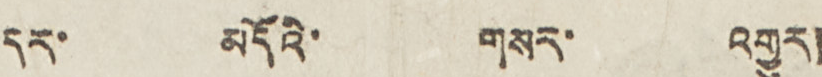དར་ མདོའི་ གསར་ འགྱུར།
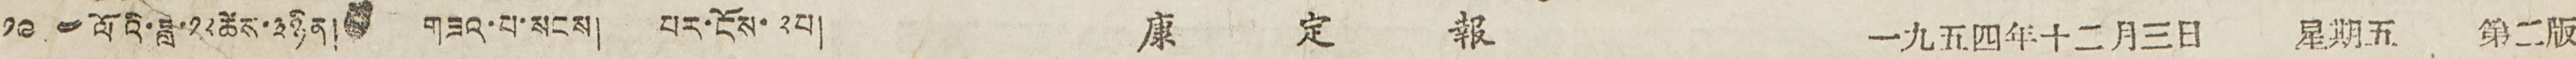༡༩༥༤ལོའི་ཟླ་༡༢ཚེས་༣ཉིན། གཟའ་པ་སངས། པར་ངོས་ ༢པ། 康 定 報 一九五四年十二月三日 星期五 第二版
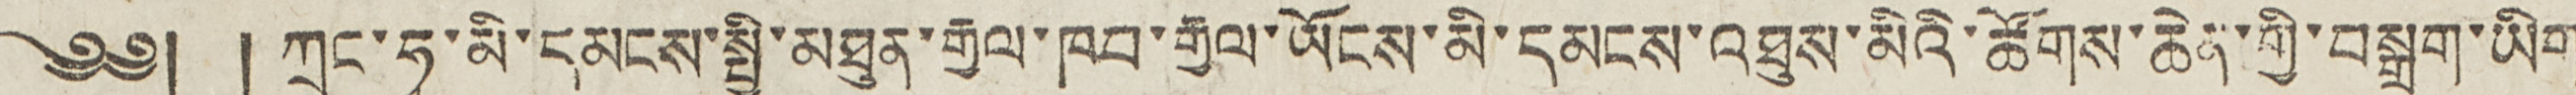༄༅། །ཀྲུང་ཧྭ་མི་དམངས་སྤྱི་མཐུན་རྒྱལ་ཁབ་རྒྱལ་ཡོངས་མི་དམངས་འཐུས་མིའི་ཚོགས་ཆེན་གྱི་བསྒྲག་ཡིག
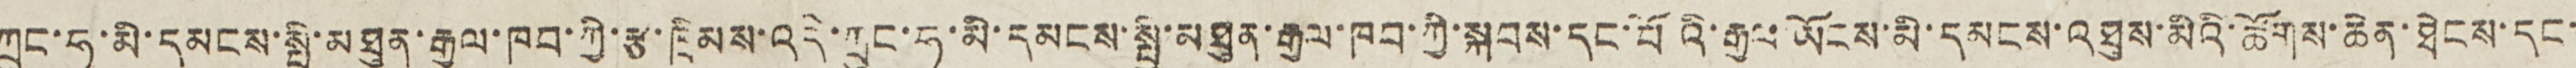ཀྲུང་ཧྭ་མི་དམངས་སྤྱི་མཐུན་རྒྱལ་ཁབ་ཀྱི་རྩ་ཁྲིམས་འདི་ཀྲུང་ཧྭ་མི་དམངས་སྤྱི་མཐུན་རྒྱལ་ཁབ་ཀྱི་སྐབས་དང་པོའི་རྒྱལ ཡོངས་མི་དམངས་འཐུས་མིའི་ཚོགས་ཆེན་ཐེངས་དང་
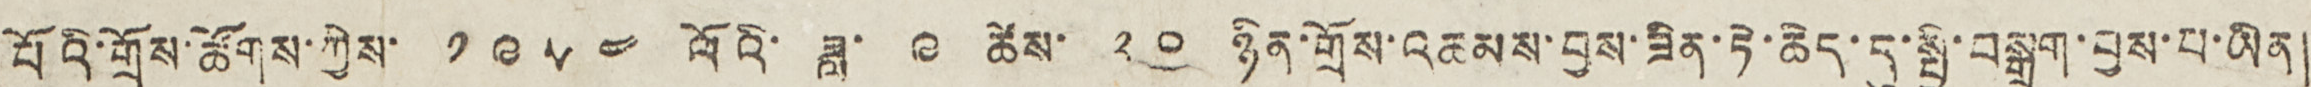པོའི་གྲོས་ཚོགས་ཀྱིས་ ༡༩༥༤ ལོའི་ ཟླ་ ༩ ཚེས་ ༢༠ ཉིན་གྲོས་འཆམས་བྱས་ཟིན་ཏེ་ཆེད་དུ་སྤྱི་བསྒྲག་བྱས་པ་ཡིན།
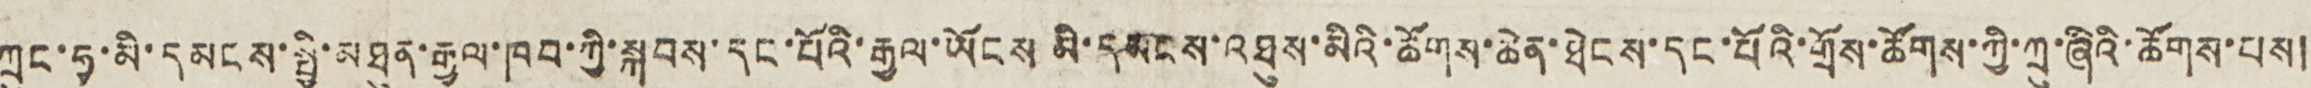ཀྲུང་ཧྭ་མི་དམངས་སྤྱི་མཐུན་རྒྱལ་ཁབ་ཀྱི་སྐབས་དང་པོའི་རྒྱལ་ཡོངས མི་དམངས་འཐུས་མིའི་ཚོགས་ཆེན་ཐེངས་དང་པོའི་གྲོས་ཚོགས་ཀྱི་ཀྲུ་ཞིའི་ཚོགས་པས།
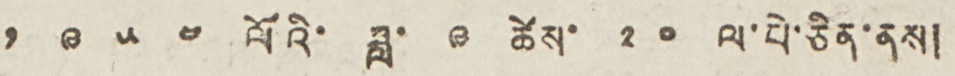༡ ༩ ༥ ༤ ལོའི་ ཟླ་ ༩ ཚེས་ ༢ ༠ ལ་པེ་ཅིན་ནས།
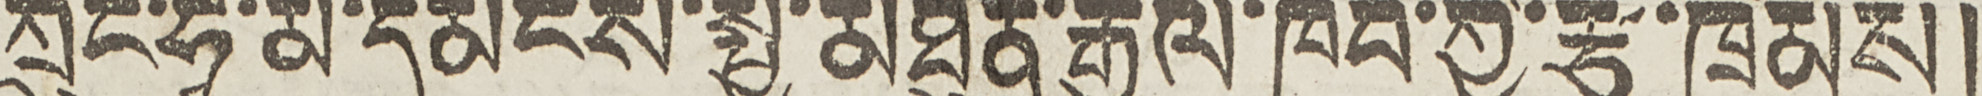ཀྲུང་ཧྭ་མི་དམངས་སྤྱི་མཐུན་རྒྱལ་ཁབ་ཀྱི་རྩ་ཁྲིམས།
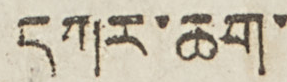དཀར་ཆག་
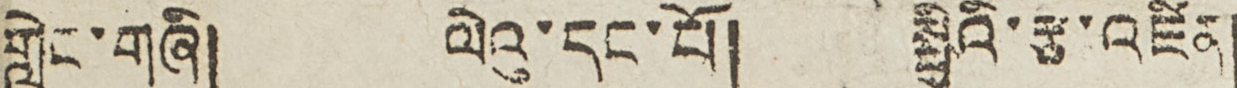གླེང་གཞི། ལེའུ་དང་པོ། སྤྱིའི་རྩ་འཛིན།
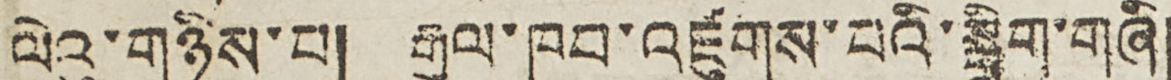ལེའུ་གཉིས་པ། རྒྱལ་ཁབ་འཛུགས་པའི་སྒྲིག་གཞི།
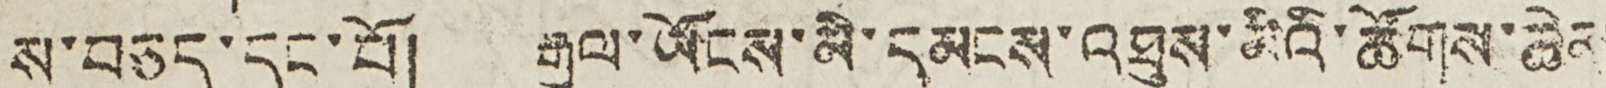ས་བཅད་དང་པོ། རྒྱལ་ཡོངས་མི་དམངས་འཐུས་མིའི་ཚོགས་ཆེན།
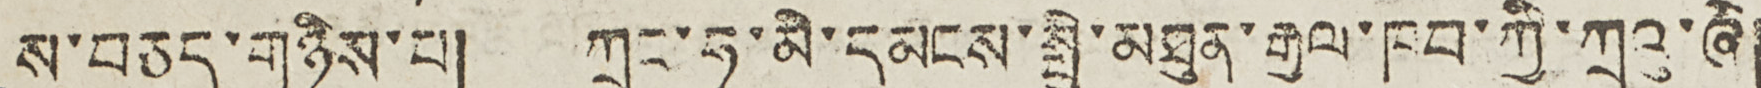ས་བཅད་གཉིས་པ། ཀྲུང་ཧྭ་མི་དམངས་སྤྱི་མཐུན་རྒྱལ་ཁབ་ཀྱི་ཀྲུའུ་ཞི།
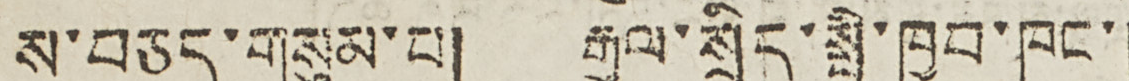ས་བཅད་གསུམ་པ། རྒྱལ་སྲིད་སྤྱི་ཁྱབ་ཁང་།
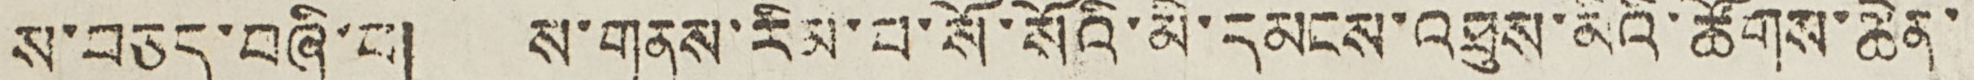ས་བཅད་བཞི་པ། ས་གནས་རིམ་པ་སོ་སོའི་མི་དམངས་འཐུས་མིའི་ཚོགས་ཆེན་
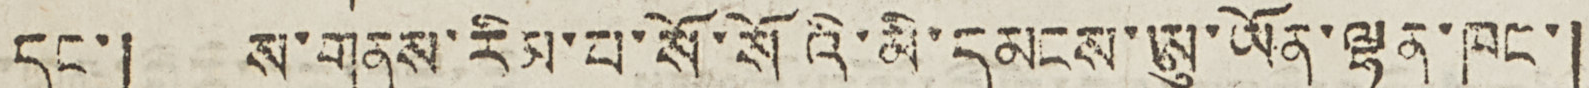དང་། ས་གནས་རིམ་པ་སོ་སོའི་མི་དམངས་ཨུ་ཡོན་ལྷན་ཁང་།
